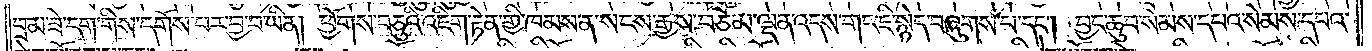བྲམ་ཟེ་དག་གིས་དགོས་པར་བྱ་བ་ཡིན། ཕྱོགས་བཅུའི་འཇིག་རྟེན་གྱི་ཁམས་ན་སངས་རྒྱས་བཅོམ་ལྡན་འདས་གང་ཇི་སྙེད་བཞུགས་པ་དང༌། བྱང་ཆུབ་སེམས་དཔའ་སེམས་དཔའ་
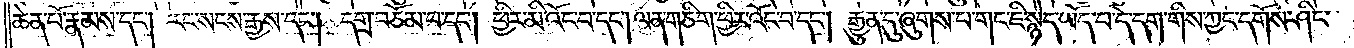ཆེན་པོ་རྣམས་དང༌། རང་སངས་རྒྱས་དང༌། དགྲ་བཅོམ་པ་དང༌། ཕྱིར་མི་འོང་བ་དང༌། ལན་གཅིག་ཕྱིར་འོང་བ་དང༌། རྒྱུན་དུ་ཞུགས་པ་གང་ཇི་སྙེད་ཡོད་པ་དེ་དག་གིས་ཀྱང་དགོས་ཤིང་
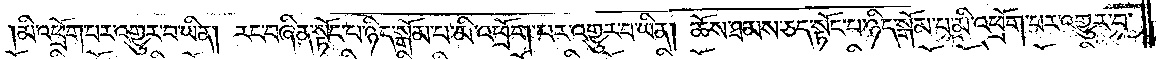མི་འཕྲོག་པར་འགྱུར་བ་ཡིན། རང་བཞིན་སྟོང་པ་ཉིད་སྒོམ་པ་མི་འཕྲོག་པར་འགྱུར་བ་ཡིན། ཆོས་ཐམས་ཅད་སྟོང་པ་ཉིད་སྒོམ་པ་མི་འཕྲོག་པར་འགྱུར་བ་
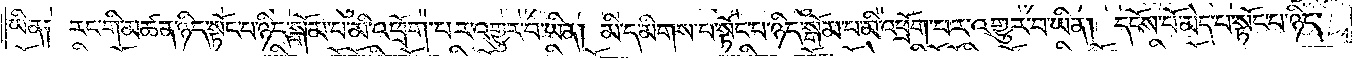ཡིན། རང་གི་མཚན་ཉིད་སྟོང་པ་ཉིད་སྒོམ་པ་མི་འཕྲོག་པར་འགྱུར་བ་ཡིན། མི་དམིགས་པ་སྟོང་པ་ཉིད་སྒོམ་པ་མི་འཕྲོག་པར་འགྱུར་བ་ཡིན། དངོས་པོ་མེད་པ་སྟོང་པ་ཉིད་
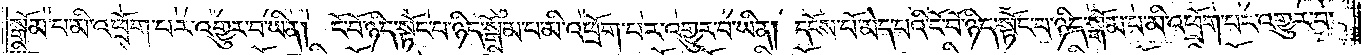སྒོམ་པ་མི་འཕྲོག་པར་འགྱུར་བ་ཡིན། ངོ་བོ་ཉིད་སྟོང་པ་ཉིད་སྒོམ་པ་མི་འཕྲོག་པར་འགྱུར་བ་ཡིན། དངོས་པོ་མེད་པའི་ངོ་བོ་ཉིད་སྟོང་པ་ཉིད་སྒོམ་པ་མི་འཕྲོག་པར་འགྱུར་བ་
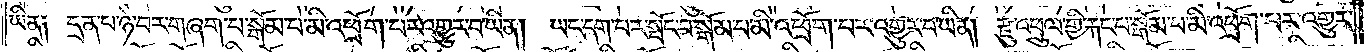ཡིན༑ དྲན་པ་ཉེ་བར་གཞག་པ་སྒོམ་པ་མི་འཕྲོག་པར་འགྱུར་བ་ཡིན། ཡང་དག་པར་སྤོང་བ་སྒོམ་པ་མི་འཕྲོགས་པར་འགྱུར་བ་ཡིན། རྫུ་འཕྲུལ་གྱི་རྐང་པ་སྒོམ་པ་མི་འཕྲོགས་པར་འགྱུར་
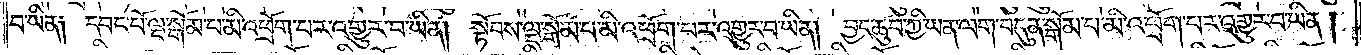བ་ཡིན༑ དབང་པོ་ལྔ་སྒོམ་པ་མི་འཕྲོག་པར་འགྱུར་བ་ཡིན། སྟོབས་ལྔ་སྒོམ་པ་མི་འཕྲོགས་པར་འགྱུར་བ་ཡིན། བྱང་ཆུབ་ཀྱི་ཡན་ལག་བདུན་སྒོམ་པ་མི་འཕྲོགས་པར་འགྱུར་བ་ཡིན།
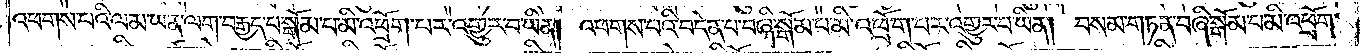འཕགས་པའི་ལམ་ཡན་ལག་བརྒྱད་པ་སྒོམ་པ་མི་འཕྲོག་པར་འགྱུར་བ་ཡིན། འཕགས་པའི་བདེན་པ་བཞི་སྒོམ་པ་མི་འཕྲོག་པར་འགྱུར་བ་ཡིན། བསམ་གཏན་བཞི་སྒོམ་པ་མི་འཕྲོག་
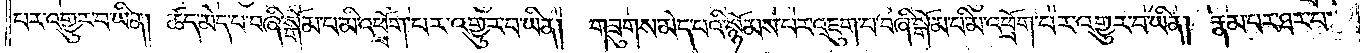པར་འགྱུར་བ་ཡིན། ཚད་མེད་པ་བཞི་སྒོམ་པ་མི་འཕྲོག་པར་འགྱུར་བ་ཡིན། གཟུགས་མེད་པའི་སྙོམས་པར་འཇུག་པ་བཞི་སྒོམ་པ་མི་འཕྲོག་པར་འགྱུར་བ་ཡིན། རྣམ་པར་ཐར་པ་
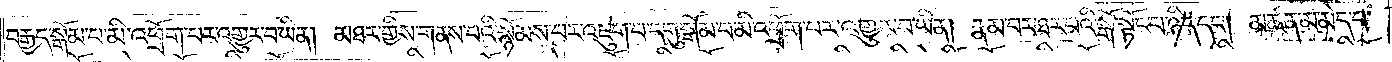བརྒྱད་སྒོམ་པ་མི་འཕྲོག་པར་འགྱུར་བ་ཡིན། མཐར་གྱིས་གནས་པའི་སྙོམས་པར་འཇུག་པ་དགུ་སྒོམ་པ་མི་འཕྲོག་པར་འགྱུར་བ་ཡིན། རྣམ་པར་ཐར་པའི་སྒོ་སྟོང་པ་ཉིད་དང༌། མཚན་མ་མེད་པ་
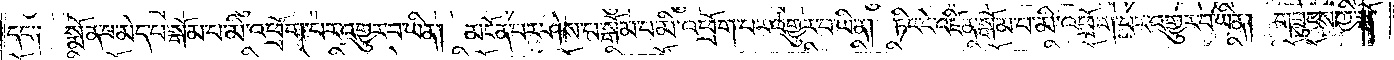དང༌། སྨོན་པ་མེད་པ་སྒོམ་པ་མི་འཕྲོགས་པར་འགྱུར་བ་ཡིན། མངོན་པར་ཤེས་པ་སྒོམ་པ་མི་འཕྲོགས་པར་འགྱུར་བ་ཡིན། ཏིང་ངེ་འཛིན་སྒོམ་པ་མི་འཕྲོགས་པར་འགྱུར་བ་ཡིན། གཟུངས་ཀྱི་སྒོ་
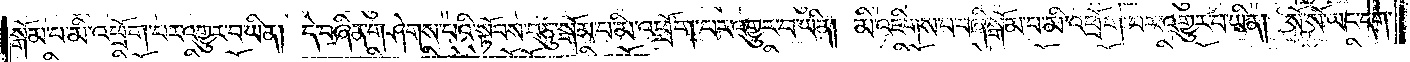སྒོམ་པ་མི་འཕྲོགས་པར་འགྱུར་བ་ཡིན། དེ་བཞིན་གཤེགས་པའི་སྟོབས་བཅུ་སྒོམ་པ་མི་འཕྲོགས་པར་འགྱུར་བ་ཡིན། མི་འཇིགས་པ་བཞི་སྒོམ་པ་མི་འཕྲོག་པར་འགྱུར་བ་ཡིན། སོ་སོ་ཡང་དག་
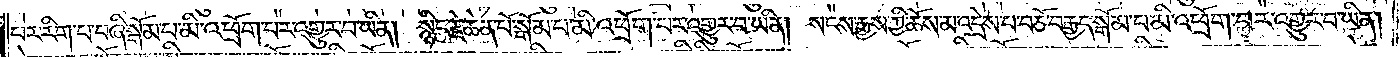པར་རིག་པ་བཞི་སྒོམ་པ་མི་འཕྲོགས་པར་འགྱུར་བ་ཡིན། སྙིང་རྗེ་ཆེན་པོ་སྒོམ་པ་མི་འཕྲོགས་པར་འགྱུར་བ་ཡིན། སངས་རྒྱས་ཀྱི་ཆོས་མ་འདྲེས་པ་བཅོ་བརྒྱད་སྒོམ་པ་མི་འཕྲོག་པར་འགྱུར་བ་ཡིན།
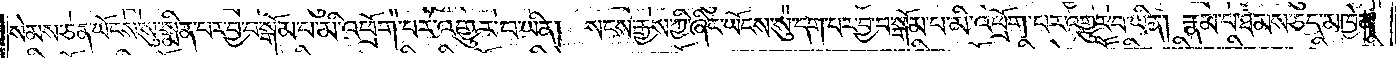སེམས་ཅན་ཡོངས་སུ་སྨིན་པར་བྱ་བ་སྒོམ་པ་མི་འཕྲོག་པར་འགྱུར་བ་ཡིན། སངས་རྒྱས་ཀྱི་ཞིང་ཡོངས་སུ་དག་པར་བྱ་བ་སྒོམ་པ་མི་འཕྲོག་པར་འགྱུར་བ་ཡིན། རྣམ་པ་ཐམས་ཅད་མཁྱེན་
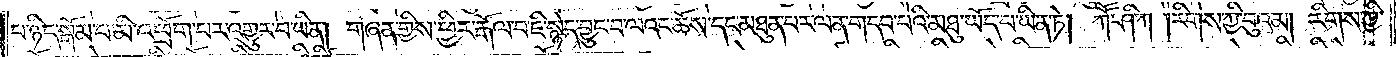པ་ཉིད་སྒོམ་པ་མི་འཕྲོགས་པར་འགྱུར་བ་ཡིན། གཞན་གྱིས་ཕྱིར་རྒོལ་བ་ཇི་སྙེད་བྱུང་བ་ལའང་ཆོས་དང་མཐུན་པར་ལན་གདབ་པའི་མཐུ་ཡོད་པ་ཡིན་ཏེ། ཀཽ་ཤི་ཀ །རིགས་ཀྱི་བུའམ། རིགས་ཀྱི་
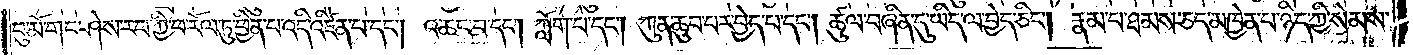བུ་མོ་གང་ཤེས་རབ་ཀྱི་ཕ་རོལ་ཏུ་ཕྱིན་པ་འདི་འཛིན་པ་དང༌། འཆང་བ་དང༌། ཀློག་པ་དང༌། ཀུན་ཆུབ་བར་བྱེད་པ་དང༌། ཚུལ་བཞིན་དུ་ཡིད་ལ་བྱེད་ཅིང༌། རྣམ་པ་ཐམས་ཅད་མཁྱེན་པ་ཉིད་ཀྱི་སེམས་
